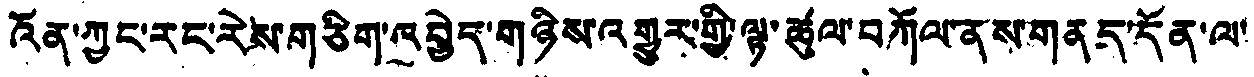འོན་ཀྱང་རང་རེས་གཅིག་འབྱེད་གཉིས་འགྱུར་གྱི་ལྟ་ཚུལ་བཀོལ་ནས་གནད་དོན་ལ་
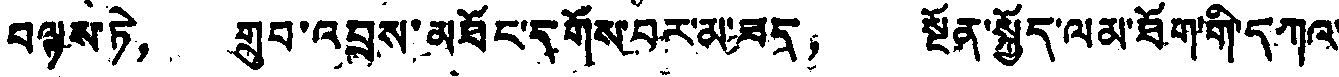བལྟས་ཏེ， གྲུབ་འབྲས་མཐོང་དགོས་པར་མ་ཟད， སྔོན་སྐྱོད་ལམ་ཐོག་གི་དཀལ་
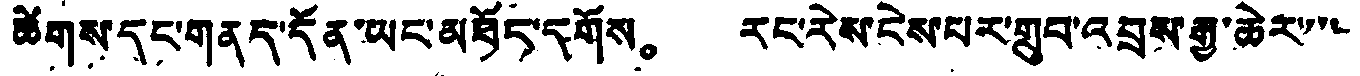ཚོགས་དང་གནད་དོན་ཡང་མཐོད་དགོས。 རང་རེས་ངེས་པར་གྲུབ་འབྲས་རྒྱ་ཆེར་་་་
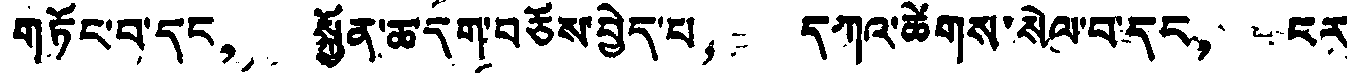གཏོང་བ་དང， སྐྱོན་ཆ་དག་བཅོས་བྱེད་པ， དཀའ་ཚེགས་སེལ་བ་དང， ངར་
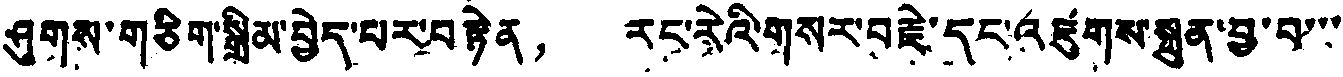ཤུགས་གཅིག་སྒྲིམ་བྱེད་པར་བརྟེན， རང་རེའི་གསར་བརྗེ་དང་འཛུགས་སྐྲུན་བྱ་བ་་་
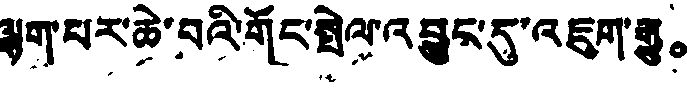ལྷག་པར་ཆེ་བའི་གོང་སྤེལ་འབྱུང་དུ་འཇུག་རྒྱུ。
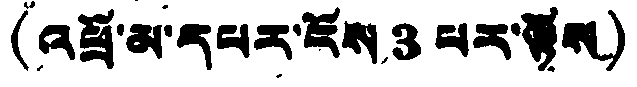(འཕྲོ་མ་དཔར་ངོས 3 པར་ལྟོས)
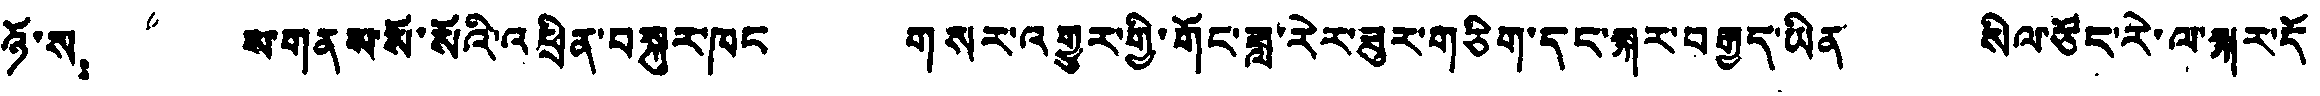ཉོ་ས： ས་གནས་སོ་སོའི་འཕྲིན་བསྐུར་ཁང གསར་འགྱུར་གྱི་གོང་ཟླ་རེར་ཟུར་གཅིག་དང་སྐར་བརྒྱད་ཡིན སིལ་ཙོང་རེ་ལ་སྐར་དོ་
